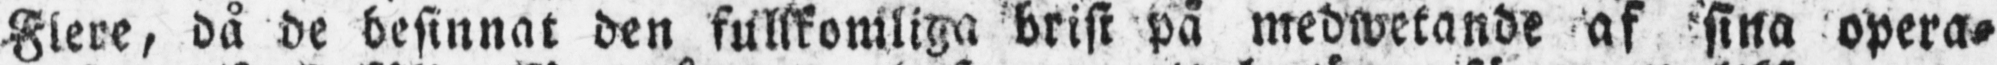Flere, då de besinnat den fullkomliga brist på medwetande af sina opera-
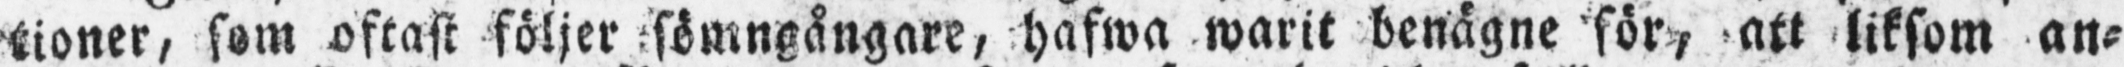tioner, som oftast följer sömngångare, hafwa warit benägne för, att liksom an-
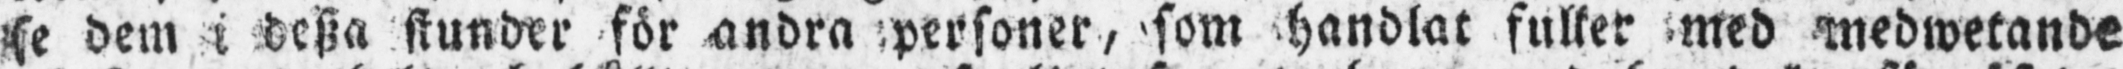se dem i desza stunder för andra personer, som handlat fuller med medwetande
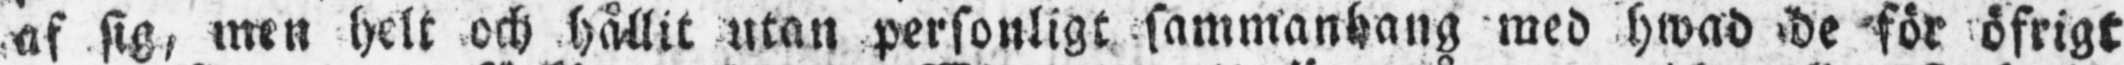af sig, men helt och hållit utan personligt sammanhang med hwad de för öfrigt
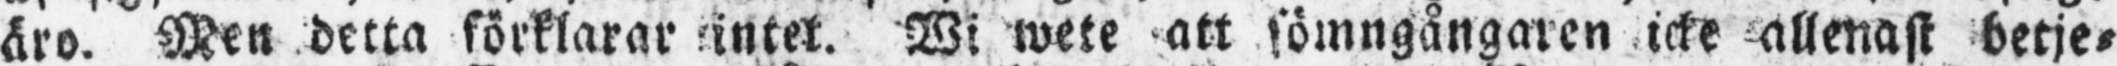äro. Men detta förklarar intet. Wi wete att sömngångaren icke allenast betje-
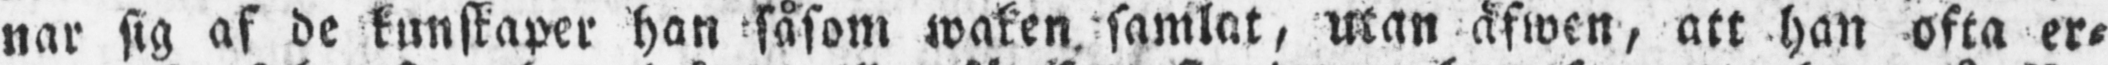nar sig af de kunskaper han såsom waken samlat, utan äfwen, att han ofta er-
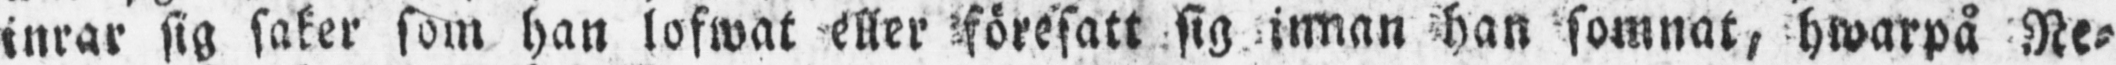inrar sig saker som han lofwat eller föresatt sig innan han somnat, hwarpå Ne-
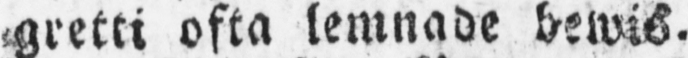gretti ofta lemnade bewis.
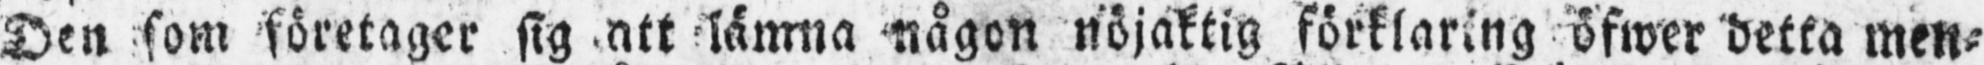Den som företager sig att lämna någon nöjaktig förklaring öfwer detta men-
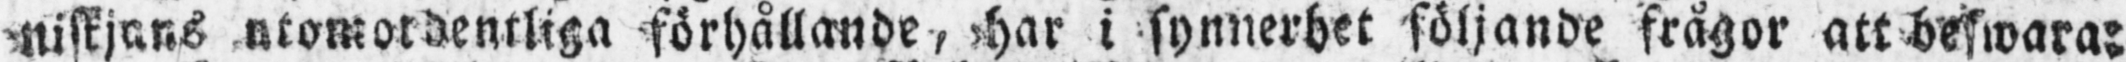niskjans utomordentliga förhallande, har i synnerhet följande frågor att beswara:
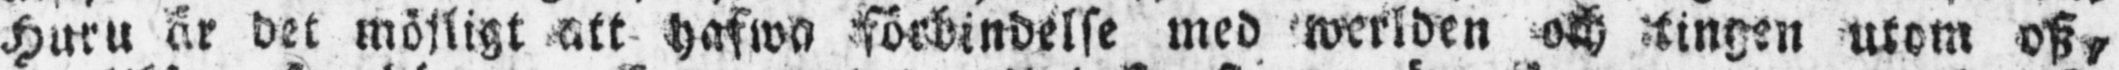Huru är det möjligt att hafwa förbindelse med werlden och tingen utom osz,
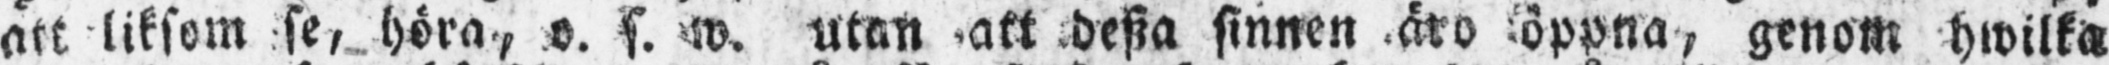att liksom se, höra, o. s. w. utan att desza sinnen äro öppna, genom hwilka
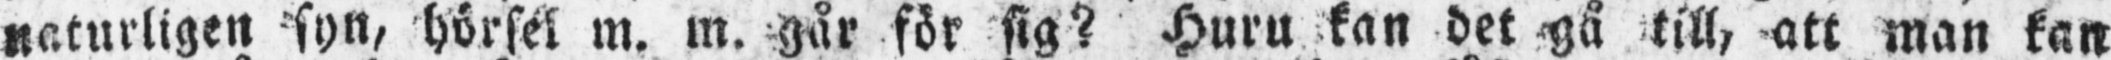naturligen syn, hörsel m. m. går för sig? Huru kan det gå till, att man kan
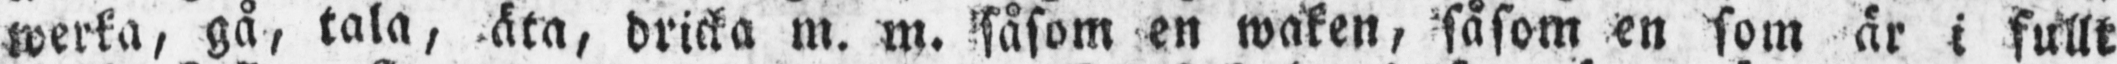werka, gå, tala, äta, dricka m. m. såsom en waken, såsom en som är i fullt
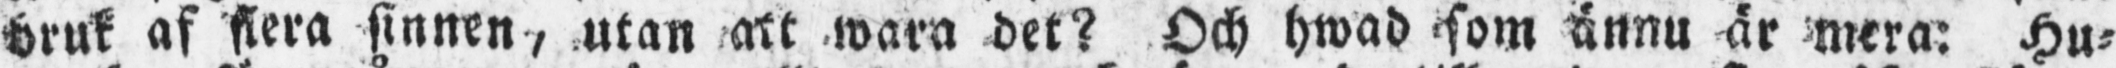bruk af flera sinnen, utan att wara det? Och hwad som är mera: Hu-
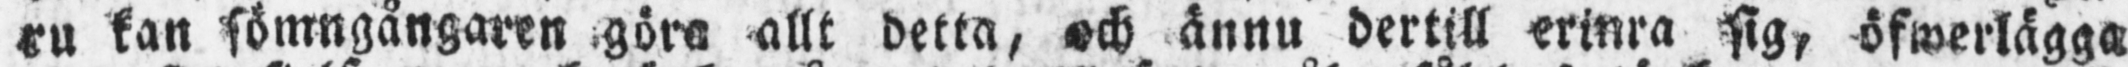ru kan sömngångaren göra allt detta, och ännu dertill erinra sig, öfwerlägga
